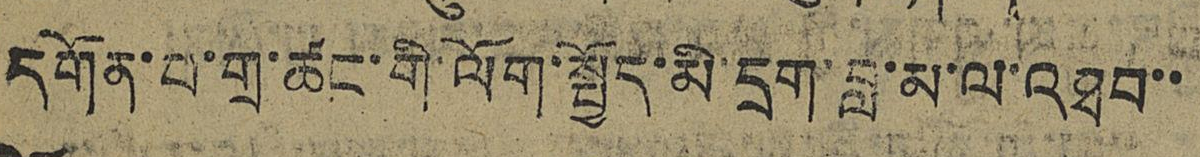དགོན་པ་གྲྭ་ཚང་གི་ལོག་སྤྱོད་མི་དྲག་བླ་མ་ལ་འཐབ་་
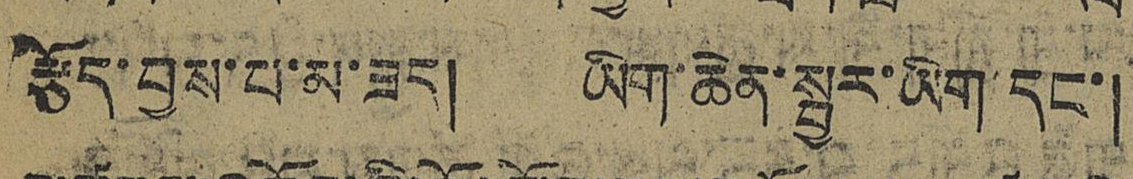རྩོད་བྱས་པ་མ་ཟད། ཡིག་ཆེན་སྦྱར་ཡིག་དང་།
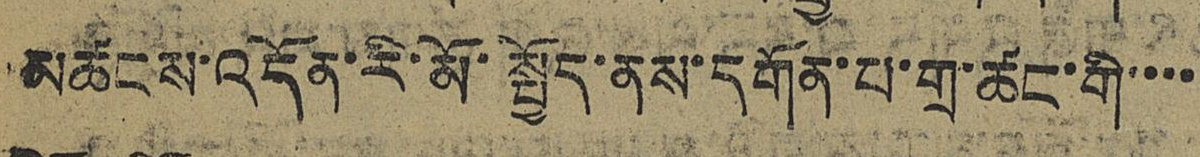མཚོངས་འདོན་རི་མོ་སྤྱོད་ནས་དགོན་པ་གྲ་ཚང་གི་་་་
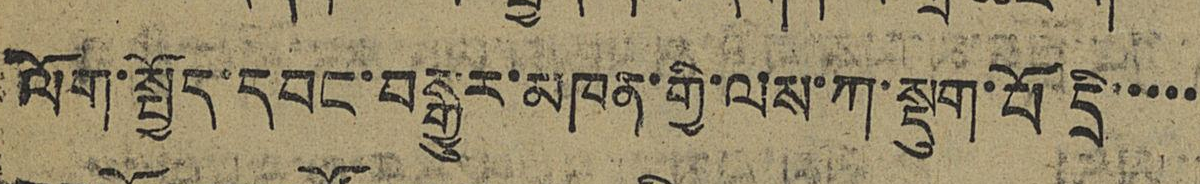ལོག་སྤྱོད་དབང་བསྒྱུར་མཁན་གྱི་ལས་ཀ་སྡུག་པོ་དྲི་་་་་
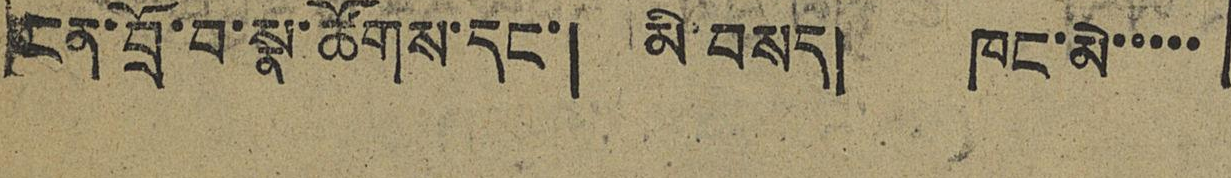ངན་བྲོ་བ་སྣ་ཚོགས་དང་། མི་བསད། ཁང་མི་་་་་
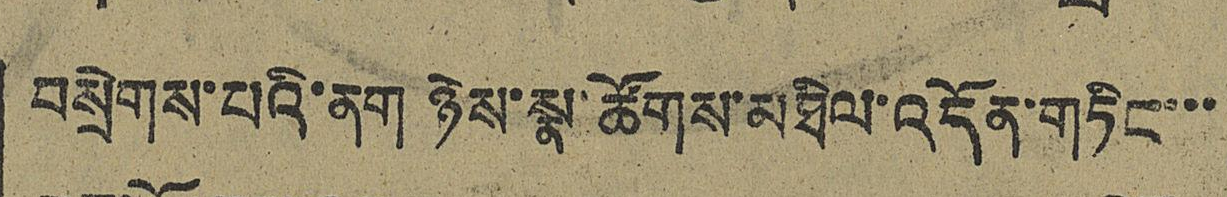བསྲེགས་པའི་ནག ཉེས་སྣ་ཚོགས་མཐིལ་འདོན་གཏིང་་་
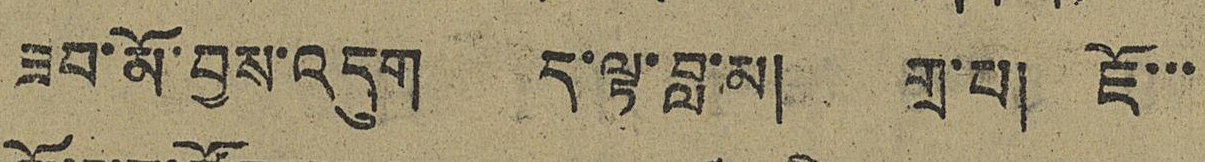ཟབ་མོ་བྱས་འདུག ད་ལྟ་བླ་མ། གྲ་པ། ཇོ་་་
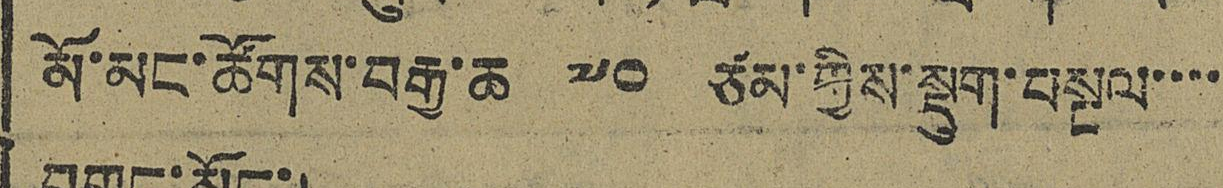མོ་མང་ཚོགས་བརྒྱ་ཆ ༧༠ ཙམ་ཀྱིས་སྡུག་བསྔལ་་་་
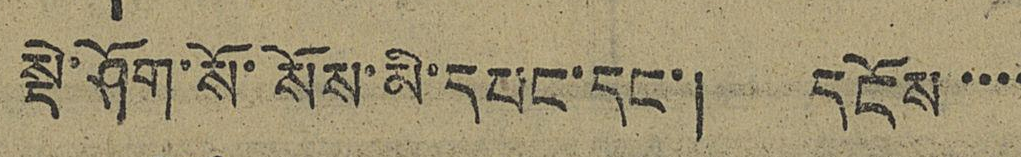སྡེ་ཤོག་སོ་སོས་མི་དཔང་དང་། དངོས་་་་
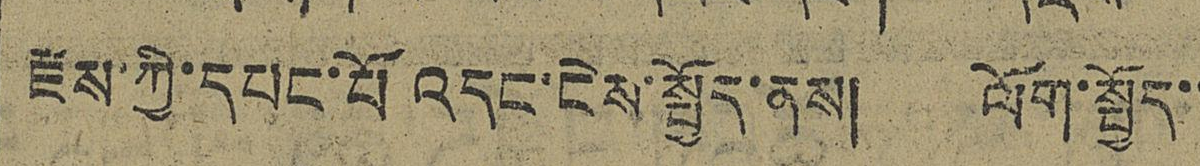རྫས་ཀྱི་དཔང་པོ འདང་ངེས་སྤྱོད་ནས། ལོག་སྤྱོད་་
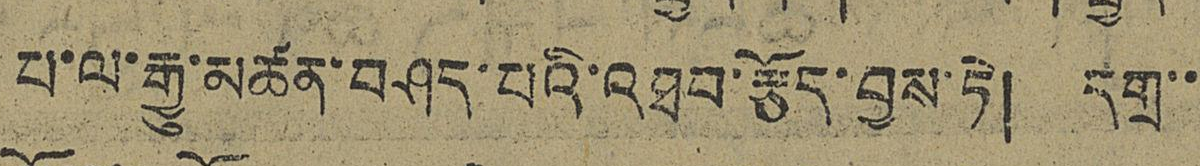པ་ལ་རྒྱུ་མཚན་བཤད་པའི་འཐབ་རྩོད་བྱས་ཏེ། དགྲ་་
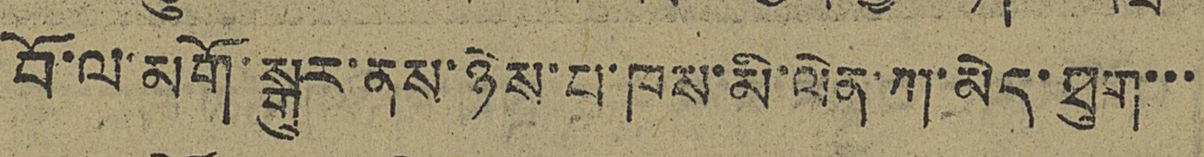བོ་ལ་མགོ་སྒྲུར་ནས་ཉེས་པ་ཁས་མི་ལེན་ཀ་མེད་ཐུག་་་
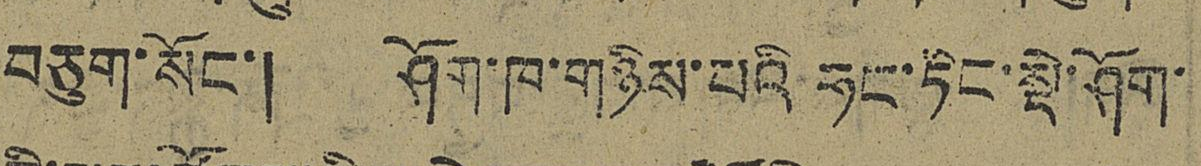བཅུག་སོང་། ཤོག་ཁ་གཉིས་པའི་ཧང་ཏིང་སྡེ་ཤོག་
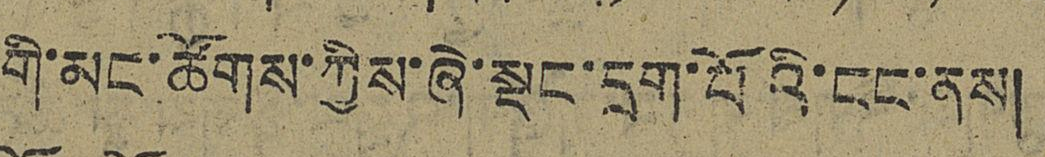གི་མང་ཚོགས་ཀྱིས་ཞེ་སྡང་དྲག་པོའི་ངང་ནས།
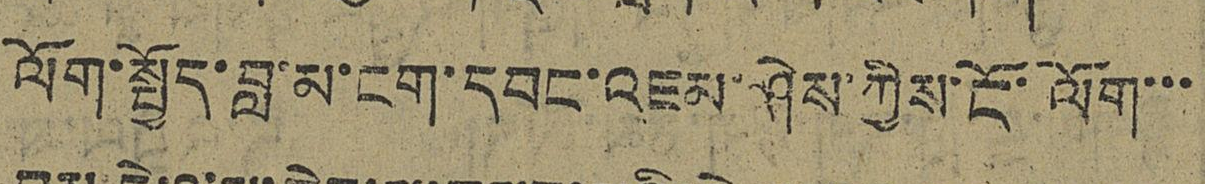ལོག་སྤྱོད་བླ་མ་ངག་དབང་འཇམ་ཤེས་ཀྱིས་ངོ་ལོག་་་
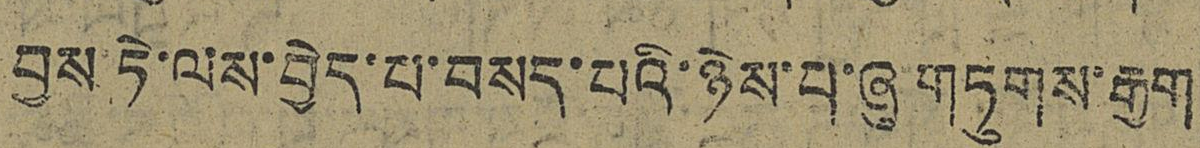བྱས་ཏེ་ལས་བྱེད་པ་བསད་པའི་ཉེས་པ་ཞུ་གཏུགས་རྒྱག
